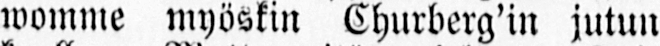womme myöskin Churberg'in jutun
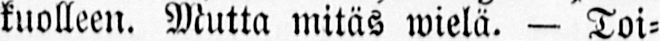kuolleen. mutta mitäs wielä. — Toi-
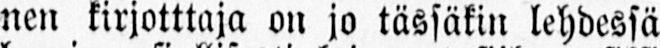nen kirjotttaja on jo tässäkin lehdessä
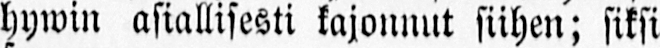hywin asiallisesti kajonnut siihen; siksi
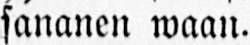sananen waan.
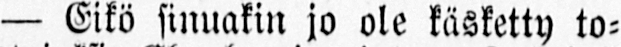— Eikö sinuakin jo ole käsketty to-
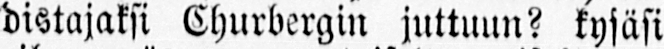distajaksi Churbergin juttuun? kysäsi
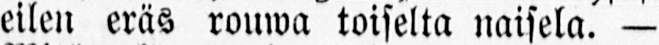eilen eräs rouwa toiselta naisela. —
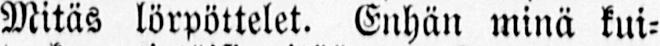Mitäs lörpöttelet. Enhän minä kui-
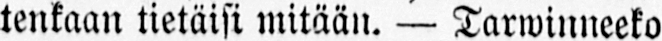tenkaan tietäisi mitään. — Tarwinneeko
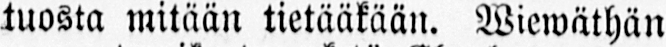tuosta mitään tietääkään. Wiewäthän
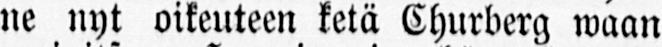ne nyt oikeuteen ketä Churberg waan
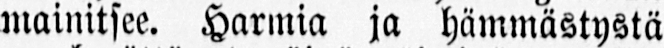mainitsee. Harmia ja hämmästystä
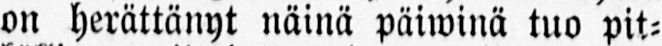on herättänyt näinä päiwinä tuo pit-
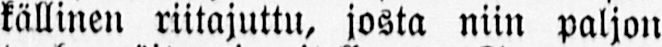källinen riitajuttu, josta niin paljon
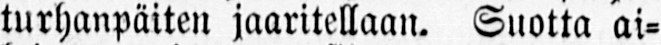turhanpäiten jaaritellaan. Suotta ai-
